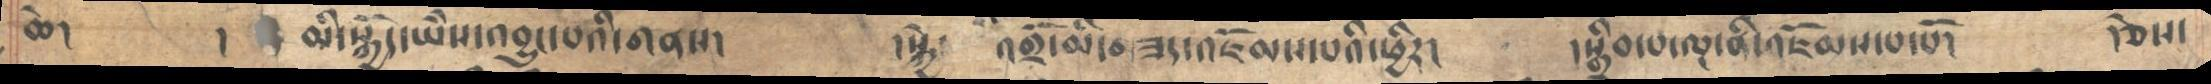ཆེ།      །   མི་སྐྱོད་ཡཻས་འབྱུང་པའི་གནས།       །སྐྱེ་འགྲོ་མི་ཟད་འཇོམས་པའི་ཕྱིར།       །སྒྲིབ་པ་ལྔ་ནི་འཇོམས་པ་པོ།    །ཅེས་
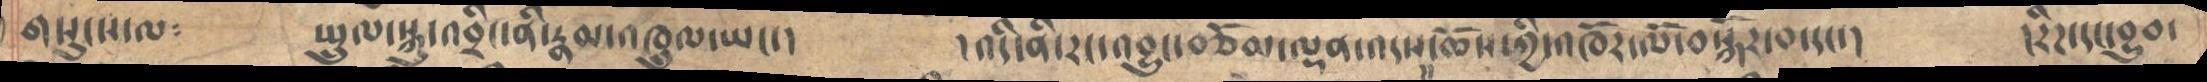གསུངས་ལ༴     སྤྲུལ་སྐུ་འབྲིང་ནི་རྣམ་འཁྲུལ་ཡང་།     །འདི་ནི་རང་འབྱུང་བཅོམ་ལྡན་འདས་དང་ཆོས་ཀྱི་འཁོར་ལོ་བསྐོར་བ་དང་།    །རིཌ་དང་བྱུབ་
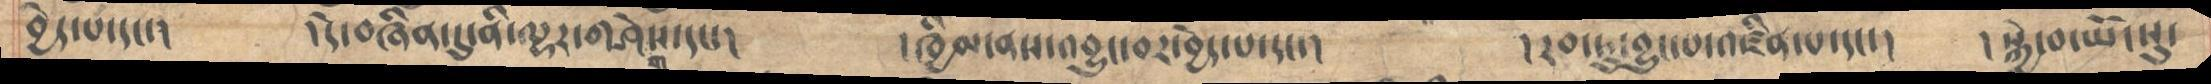བྱེད་པ་དང་།  །དེ་བཞིན་དུ་ནི་ལྷར་གཤེགས་དང་།     །ཁྱིམ་ནས་འབྱུང་བར་བྱེད་པ་དང་།      །རབ་ཏུ་བྱུང་པ་འཛིན་པ་དང་།   །སྐྱེ་བ་ཡོངསུ་
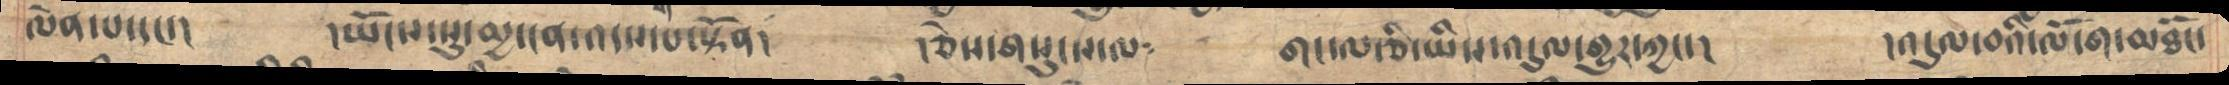ཆེན་པ་དང་།     །ཡོངས་སུ་མྱ་ངན་འདས་པ་སྟོན།     ཅེས་གསུངས་ལ༴      གང་ལ་ཅི་ཡིས་འདུལ་གྱུར་ཀྱང་།      །འདུལ་བའི་ལོ་ག་མཐོང་
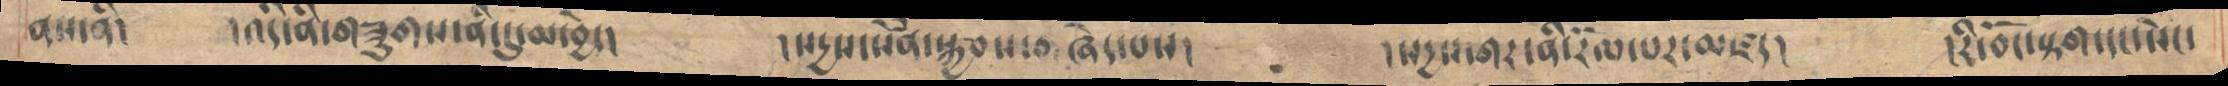ནས་ནི།     །འདི་ནི་གཟུགས་ནི་དུ་མ་བྱེད།      །སདྱས་སེཾན་སྐྱབས་བཞེད་པས།      །སདྱས་གར་ནི་རོལ་པར་མཛད།     །རི་བོང་སྟག་དང་སེང་
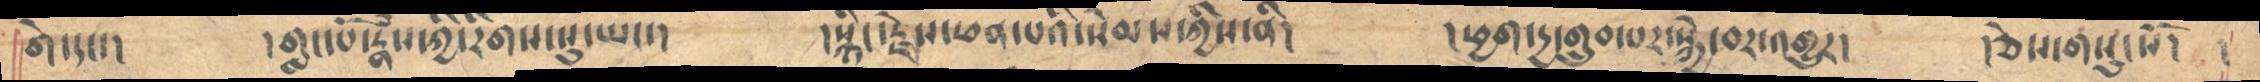གེ་དང་།     །གླང་པོ་རྣཾས་ཀྱི་རིགས་སུ་ཡང་།     །སྙིང་རྗེས་ཕན་པའི་སེམས་ཀྱིས་ནི།     །ཕྱག་དྱ་གྲུབ་པར་སྐྱེ་བར་འགྱུར།    །ཅེས་གསུངསོ།  །
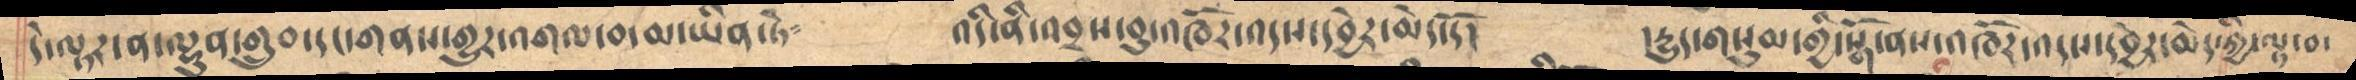དེ་ལྟར་ན་ལྷུན་གྲུབ་དང་གནས་གྱུར་འགལ་བ་མ་ཡིན་ཏེ༴      འདི་ནི་འབྲས་བུ་འཁོར་འདས་དབྱེར་མེད་དོ།    །དྱུད་གསུམ་གྱི་སྒོ་ནས་འཁོར་འདས་དབྱེར་མེད་ཀྱི་ལྟ་བ་
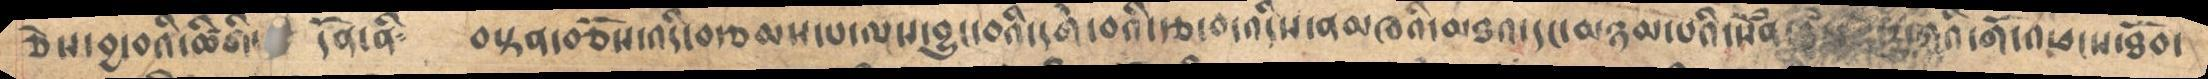ཅེས་བྱ་བའི་ཚིགི་དོན་ནི༴     བསྟན་བཅོས་འདི་བརྩམས་པ་ལས་བྱུང་བའི་དགེ་བའི་རྩ་བ་འདིས་ནམཁའི་མཐའ་དང་མཉམ་པའི་སེཾན་ཐཾད་ཧེ་རུ་ཀའི་གོ་འཕངས་ཐོབ་
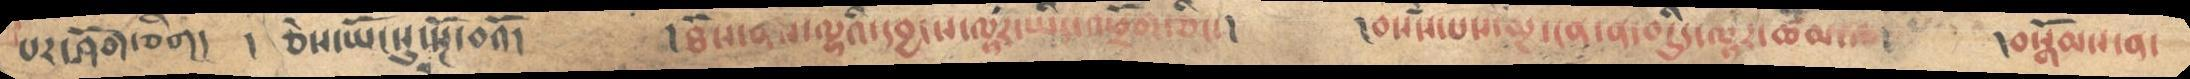པར་ཤོག་ཅིག།   ། ཅེས་ཡོངསུ་བསྔོ་བའོ།   །ཐོས་ནས་ལྷའི་དབྱངས་ལྟར་ཡིད་འཕྲོག་ཅིང་།    །བསཾས་པས་མྱ་ངན་ན་བདཙིད་ལྟར་ཚིམ་ལ།  །བསྒོམས་ན་
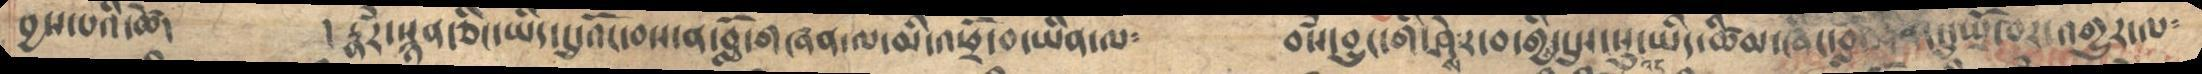བྱས་པའི་ཚེ།       །རྣཾར་སྙན་ཅིང་ཡིད་དུ་འོང་བས་ན་བློ་གཞན་ལ་མི་འཕྲོ་བ་ཡིན་ལ༴   བསཾ་བྱུང་གི་ཤེས་རབ་གྱི་དུས་སུ་འང་ཡིད་ཚིམ་ཞིང་བློ་བརྟན་དུ་སྤྲོ་བར་འགྱུར་ལ༴
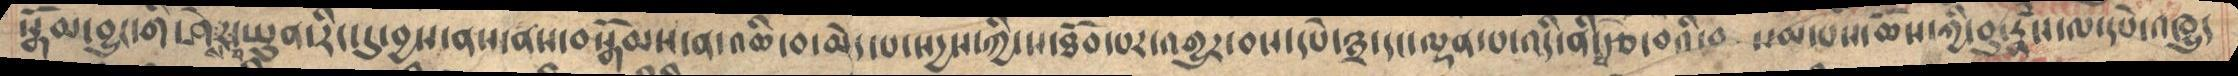སྒོམ་བྱུང་གི་ཤེས་རབ་ཡུན་རིང་དུ་བྱས་ནས་ནས་བསྒོམས་ན་འཆི་བ་མེད་པ་སདྱས་ཀྱི་ས་ཐོབ་པར་འགྱུར་བས་དཔེ་༣་དདང་ལྡན་པ་འདི་ནི་བརྩེ་བའི་བསམ་པས་ཆོས་ཀྱི་བུ་རྣཾས་ལ་དཔེ་འཁྱུད
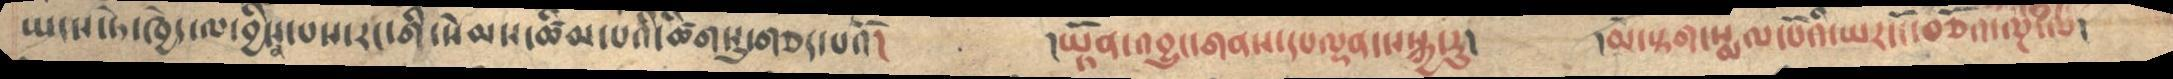སྤངས་ཏེ་ཁྱེད་ལ་བྱིན་པས་རང་གི་སེམས་ཚིམ་པའི་ཚིགསུ་གཅད་པའོ།      །ཡྟོན་འབྱུང་གནས་དཔལྡན་སསྐྱ་རུ།   །མེ་སྟག་སྨལ་པོའི་ཡར་ངོ་བཅོའ་ལྔ་ལ།
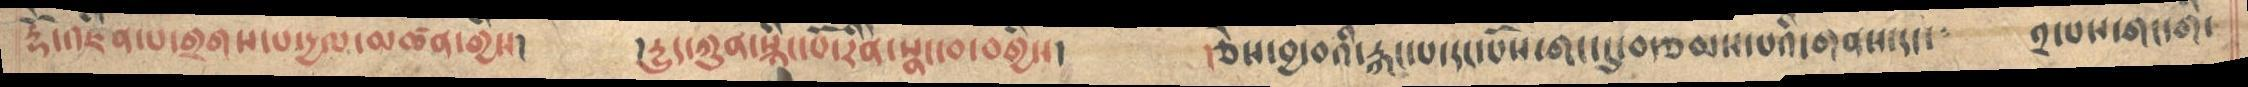རྡོེ་འཛིན་པ་གྲགས་པ་དྱལ་མཚན་གྱིས།      །དྱུད་ཀུན་སྙིང་པོ་རིནི་སྣང་བ་བགྱིས།        །ཅེས་བྱ་བའི་རྐང་པ་དང་པོས་གང་དུ་བརྩམས་པའི་གནས་དང་༴    ༢་པས་གང་གི་
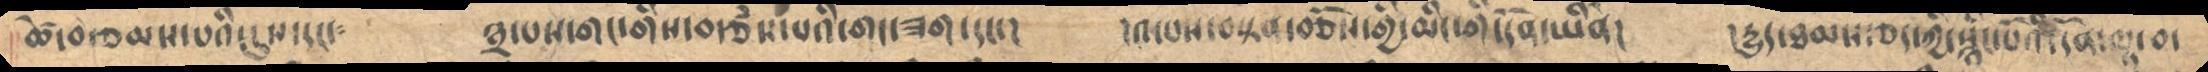ཚེ་བརྩམས་པའི་དུས་དང་༴     ༣་པས་གང་གིས་བརྩཾས་པའི་གང་ཟག་དང་།     །༤་པས་བསྟན་བཅོས་གྱི་མིང་གི་དོན་ཡིནེ།    །དྱུད་ཐམས་ཅད་ཀྱི་སྙིང་པོའི་དོན་ལྟ་བ་
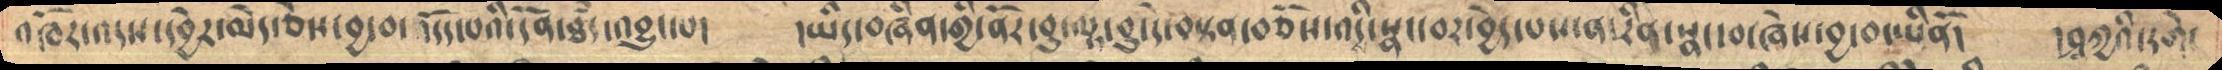འཁོར་འདས་དབྱེར་མེད་ཅེས་བྱ་བ་འདོད་པའི་དོན་ཐཾད་འབྱུང་པ།      །ཡིད་བཞིན་གྱི་ནོར་བུ་ལྟ་བུ་དེ་བསྟན་བཅོས་འདི་སྣང་བར་བྱེད་པས་ན་རིནེ་སྣང་བ་ཞེས་བྱ་བ་ཡིནོ།    །ཤྭཀྱའི་དགེ་
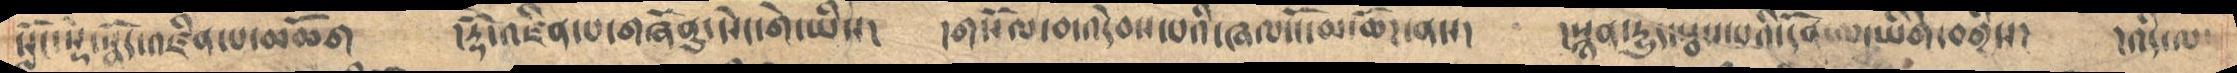སློང་སྡེ་སྣོད་འཛིན་པ་མཆོག       །རྡོེ་འཛིན་པ་གཞོནུ་སེང་གེ་ཡིས།     །གསོལ་བ་འདེབས་པའི་ཞལ་ངོ་མ་ཆོཌ་ནས།    །སྙན་དྱུད་སྦས་པའི་དོན་ལ་ཡིགེ་བགྱིས།    །འདི་ལ་
